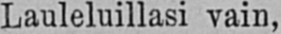Lauleluillasi vain,
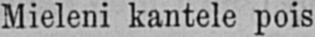Mieleni kantele pois
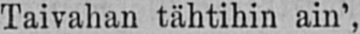Taivahan tähtihin ain',
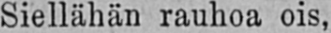Siellähän rauhoa ois,
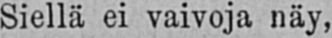Siellä ei vaivoja näy,
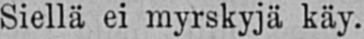Siellä ei myrskyjä käy.
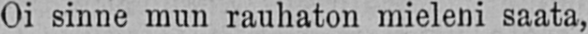Oi sinne mun rauhaton mieleni saata,
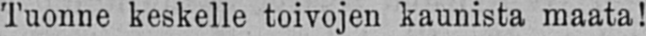Tuonne keskelle toivojen kaunista maata!
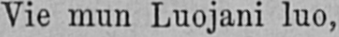Vie mun Luojani luo,
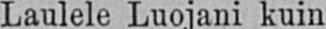Laulele Luojani kuin
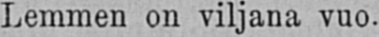Lemmen on viljana vuo.
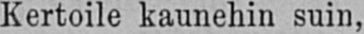Kertoile kaunehin suin,
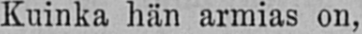Kuinka hän armias on,
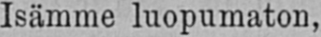Isämme luopumaton,
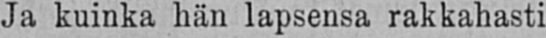Ja kuinka hän lapsensa rakkahasti
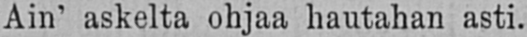Ain' askelta ohjaa hautahan asti.
